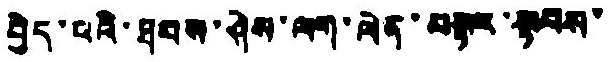བྱེད་པའི་ཐབས་ཤེས་ལག་ལེན་བསྟར་སྟབས་
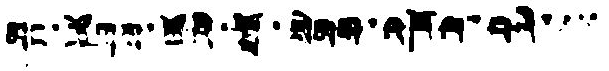མང་ཚོགས་ཚོའི་སྤྲོ་སེམས་འཁོལ་བའི་་་་
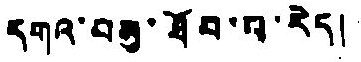དགའ་བམུ་ཐོབ་པ་རེད།
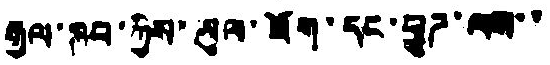རྒྱལ་ཁབ་ཀྱིས་ཡུལ་ཟོག་དང་ཕྱུཌ་ལས་་
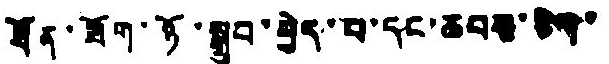ཐོན་ཟོག་ཉོ་སྒྲུབ་བྱེད་པ་དང་ཆབས་ཅིག་
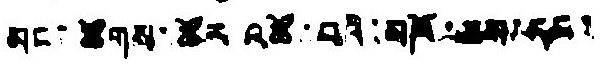མང་ཚོགས་ཚོར་འཚོ་བའི་མཁོ་ཆས་དང་
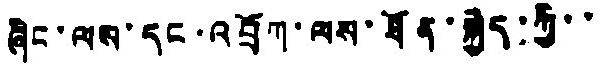ཞིང་ལས་དང་འབྲོག་ལས་ཐོན་སྐྱེད་ཀྱི་་
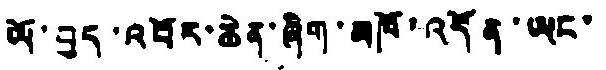ཡོ་བྱད་འབོར་ཆེན་ཞིག་མཁོ་འདོན་ཡང་
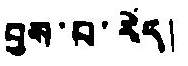བྱས་པ་རེད།
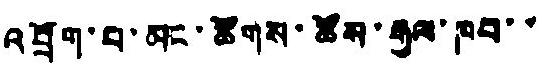འབྲོག་པ་མང་ཚོགས་ཚོས་རྒྱལ་ཁབ་་
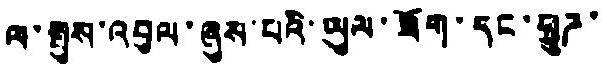ལ་སྤུས་འབུལ་ཞུས་པའི་ཡུལ་ཟོག་དང་ཕྱུཌ་
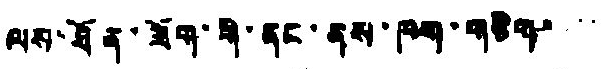ལས་ཐོན་ཟོག་གི་ནང་ནས་ཁག་གཅིག་་་་
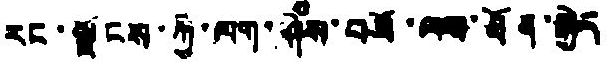རང་ལྗོངས་ཀྱི་ལག་ཤེས་བཟོ་ལས་ཐོན་སྐྱེད
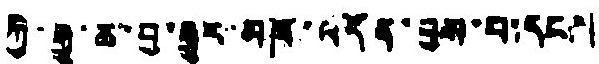ཀྱི་རྒྱུ་ཆ་བྱ་རྒྱུར་མཁོ་འདོན་བྱས་པ་དང་།
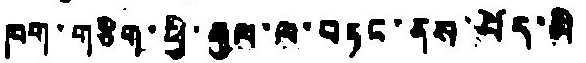ཁག་གཅིག་ཕྱི་རྒྱལ་ལ་བཏང་ནས་བོད་མི
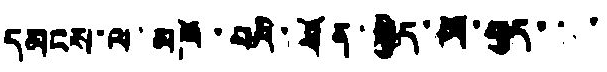དམངས་ལ་མཁོ་པའི་ཐོན་སྐྱེད་ལོ་གུད་་་
